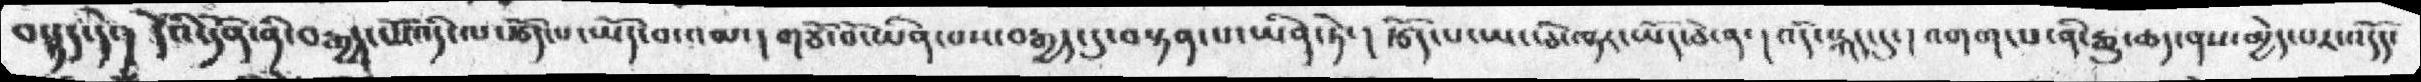བསྡད་དེ་།  དེའི་དོན་ནི་བརྒྱད་པོ་འདི་ལ་རྩོད་པ་ཡོད་བ་འམ་། གཙོ་བོ་ཡིན་པས་བརྒྱད་དུ་བསྟན་པ་ཡིན་ཏེ་། རྩོད་པ་ཡང་ཅི་ལྟར་ཡོད་ཅེ་ན་། འདི་སྐད་དུ་། འགག་པ་ནི་རྒྱུ་ཆད་ནས་མྱེད་པར་འདོད་
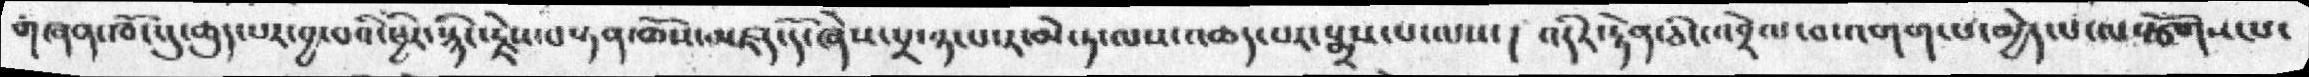གཞན་ཁོང་དུ་ཆུད་པར་བྱ་བའི་ཕྱིར་སྙིང་རྗེས་བསྟན་ཆོས་མཛད་དོ་ཞེས་པྲ་ཉ་པ་ར་མེ་ཏ་ལས་འཆད་པར་སྨྲས་པ་ལས་། འདིར་རྟེན་ཅིང་འབྲེལ་བ་འགག་པ་མྱེད་པ་ལསྩོགས་པ་
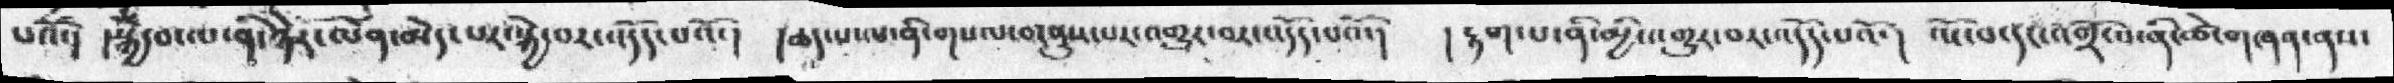པའོ་། །སྐྱེ་བ་ལ་ནི་ཉེར་ལེན་མེད་པར་སྐྱེ་བར་འདོད་པའོ་།  །ཆད་པ་ལ་ནི་གསལ་བ་ནུས་པར་འགྱུར་བར་འདོད་པའོ་།  །རྟག་པ་ནི་མྱི་འགྱུར་བར་འདོད་པའོ་།  འོང་བ་དང་འགྲོ་བ་ནི་ཚེ་གཞན་ནས་
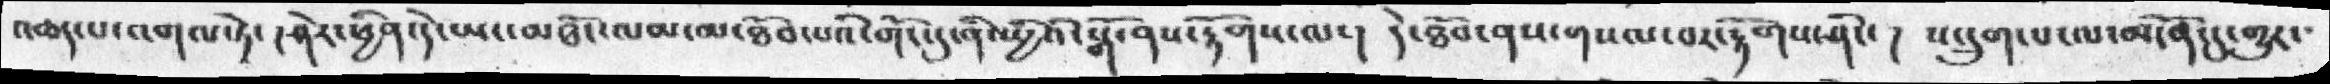འཆད་པ་འགལ་ཏེ་། ཤེར་ཕྱིན་དེ་ཡང་མཐོང་ལམ་མ་ཐོབ་པའི་གོང་དུ་ནི་སྤྱིའི་སྒོ་ནས་རྟོགས་ལ་།  དེ་ཐོབ་ནས་གསལ་བར་རྟོགས་ཤིང་།  ས་དྲུག་པ་ལ་མངོན་དུ་གྱུར་
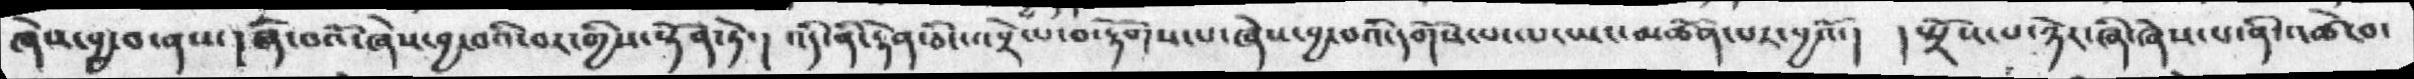ཞེས་བྱ་བ་ནས་། ཞི་བའོ་ཞེས་བྱ་བའི་བར་གྱིས་སྟོན་ཏེ་། འདི་ནི་རྟེན་ཅིང་འབྲེལ་བ་རྟོགས་པ་ཞེས་བྱ་བའི་དགོས་པ་ལ་ཡང་མཚོན་པར་བྱའོ་།  །སྤྲོས་པ་ཉེར་ཞི་ཞེས་པ་ནི་འཚེ་བ་
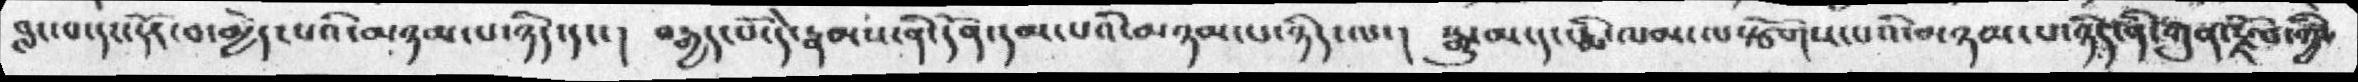བླང་པ་དང་དོར་བ་མྱེད་པའི་མཉམ་པ་ཉིད་དང་།  བརྒྱད་པོ་དེ་རྣམས་ནི་དོན་དམ་པའི་མཉམ་པ་ཉིད་ལ་།  སྒྱུ་མ་དང་རྨི་ལམ་ལསྩོགས་པའི་མཉམ་པ་ཉིད་ནི་ཀུན་རྫོབ་ཀྱི་
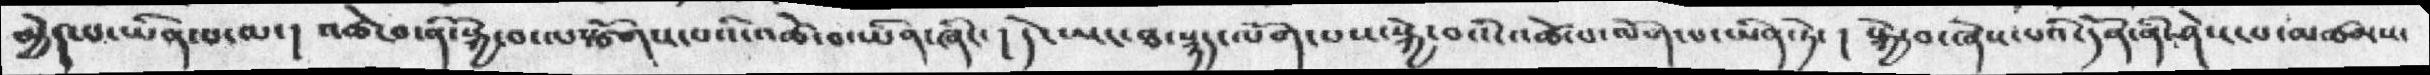མྱེད་པ་ཡིན་པ་ལ་། འཚེ་བ་ནི་སྐྱེ་བ་ལསྩོགས་པའི་འཚེ་བ་ཡིན་ཞིང་། དེ་ཡང་ཐ་སྙད་ལོག་པས་སྐྱེ་བའི་འཚེ་པ་ལོག་པ་ཡིན་ཏེ་། སྐྱེ་བ་ཞེས་པའི་དོན་ནི་ཤེས་པ་མཚམས་
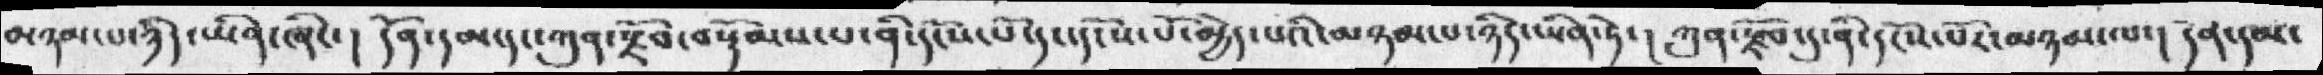མཉམ་པ་ཉིད་ཡིན་ཞིང་། དོན་དམ་དང་ཀུན་རྫོབ་བསྡོམས་པ་ནི་དངོས་པོ་དང་དངོས་པོ་མྱེད་པའི་མཉམ་པ་ཉིད་ཡིན་ཏེ་། ཀུན་རྫོབ་དུ་ནི་དངོས་པོར་མཉམ་ལ་། དོན་དམ་
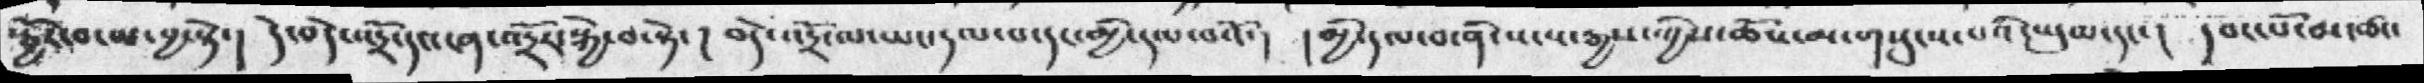སྦྱོར་བ་མ་བྱ་སྟེ་། དེ་བདེ་འདྲོ་དང་ངན་འདྲོར་སྐྱེ་བ་སྟེ་། བདེ་འདྲོ་ལ་ཡང་དལ་བ་མྱི་དལ་བའོ་། །མྱི་དལ་བ་ནི་སངས་རྒྱས་ཀྱིས་ཆོས་མ་གསུངས་པའི་ཡུམ་དང་། དབང་པོ་མ་ཚང་
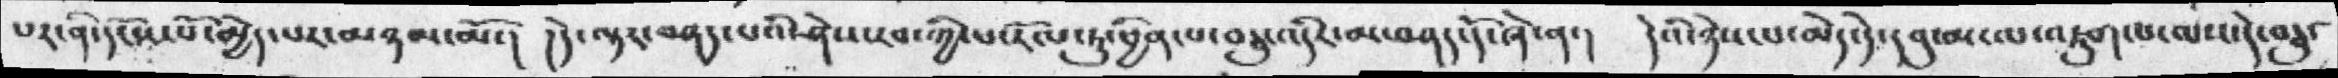པར་ནི་དངོས་པོ་མྱེད་པར་མཉམ་མོ་།  །དེ་ལྟར་བཤད་པའི་ཤེས་རབ་ཀྱི་ཕ རོལ་ཏུ་ཕྱིན་པ་བཅུ་འདིར་མ་བཤད་དོ་ཞེ་ན་།  དེའི་ཉེས་པ་མེད་དེད་དབུ་མ་ལ་འཇུག་པ་ལས་དེ་བཅུ་
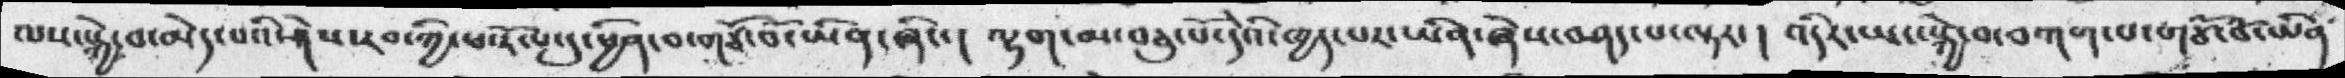ལས་སྐྱེ་བ་མེད་པའི་ཤེས་རབ་ཀྱི་ཕ་རོལ་དུ་ཕྱིན་བ་གཙོ་བོ་ཡིན་ཞིང་།  ལྷག་མ་བཅུ་པོ་དེའི་ཁྱད་པར་ཡིན་ཞེས་བཤད་པ་ལྟར་། འདིར་ཡང་སྐྱེ་བ་བཀག་པ་གཙོ་བོ་ཡིན་
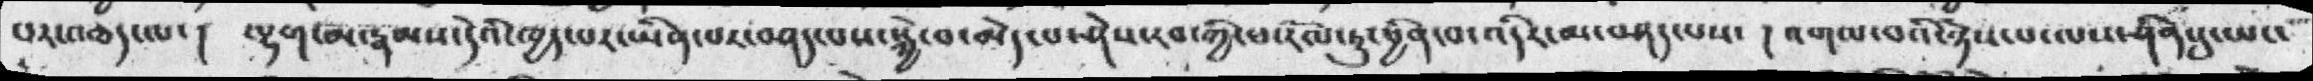པར་འཆད་ལ་།  ལྷག་མ་རྣམས་དེའི་ཁྱད་པར་ཡིན་པར་བཤད་པས་སྐྱེ་བ་མེད་པ་ཤེས་རབ་ཀྱི་ཕ རོལ་ཏུ་ཕྱིན་བ་འདིར་མ་བཤད་པས་ །འགལ་བའི་ཉེས་པ་ལས་ཤིན་དུ་ཡང་
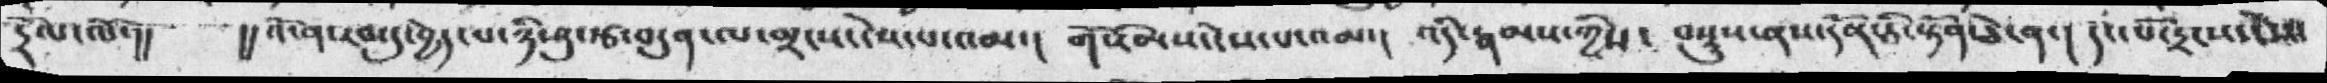དྲོལ་ལོ་།།   །།འོ་ན་རབ་དུ་བྱེད་པ་ཉི་ཤུ་རྩ་བདུན་ལ་གྲངས་ངེས་པ་འམ་།  གོ་རིམས་ངེས་པ་འམ་།  འདི་རྣམས་ཀྱིས་  བསྡུས་ནས་དོན་ཅི་སྟོན་ཅེ་ན་། དང་པོ་དྲངས་ངེས་
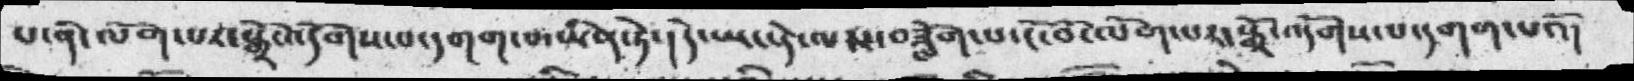པ་ནི་ལོག་པར་སྒྲོ་འདོགས་པ་དགག་པ་ཡིན་ཏེ་། དེ་ཡང་དེ་ལས་བཟློག་པ་ངོ་བོ་ལོག་པར་སྒྲོ་འདོགས་པ་དགག་པའོ།
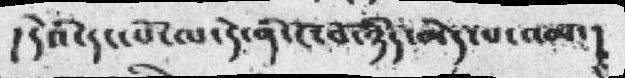།དེའི་དང་པོ་ལ་དེ་ནི་ངོ་བོ་ཉིད་མེད་པ་འམ་།
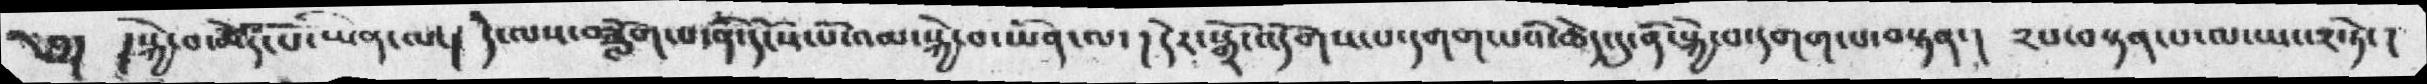༅།  །སྐྱེ་བ་མེད་པ་ཡིན་ལ་།  དེ་ལས་བཟློག་པ་ནི་དངོས་པོ་འམ་སྐྱེ་བ་ཡིན་ལ་། དེར་སྒྲོ་འདོགས་པ་དགག་པའི་ཆེད་དུ་ནི་སྐྱེ་བ་དགག་པ་བསྟན་།  ༢པ་བསྟན་པ་ལ་ཡང་༢་ཏེ་།
